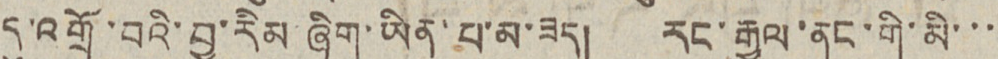དུ་འགྲོ་བའི་བྱ་རིམ ཞིག་ཡིན་པ་མ་ཟད། རང་རྒྱལ་ནང་གི་མི་་་
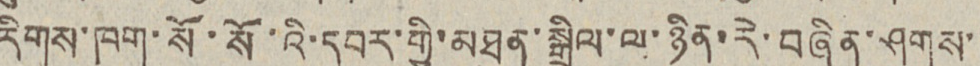རིགས་ཁག་སོ་སོ་འི་དབར་གྱི་མཐུན་སྒྲིལ་ལ་ཉིན་རེ་བཞིན་ཤུགས་་
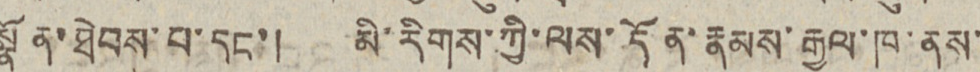སྣོན་ཐེབས་པ་དང་། མི་རིགས་ཀྱི་ལས་དོན་རྣམས་རྒྱལ་ཁ་ནས་
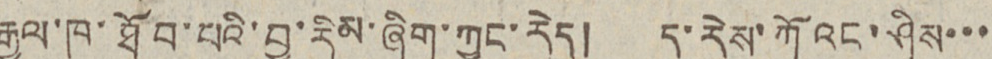རྒྱལ་ཁ་ཐོབ་པའི་བྱ་རིམ་ཞིག་ཀྱང་རེད། ད་རེས་ཀོའང་ཤིས་་་
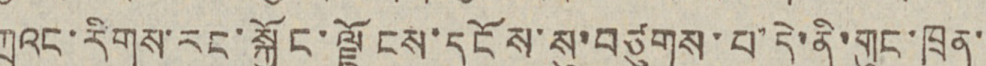ཀྲུའང་རིགས་རང་སྐྱོང་ལྗོངས་དངོས་སུ་བཙུགས་པ་དེ་ནི་གུང་ཁྲན་
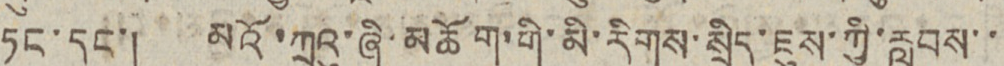ཏང་དང་། མའོ་ཀྲུའུ་ཞི་མཆོག་གི་མི་རིགས་སྲིད་ཇུས་ཀྱི་རླབས་་
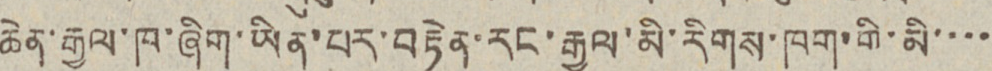ཆེན་རྒྱལ་ཁ་ཞིག་ཡིན་པར་བརྟེན་རང་རྒྱལ་མི་རིགས་ཁག་གི་མི་་་་
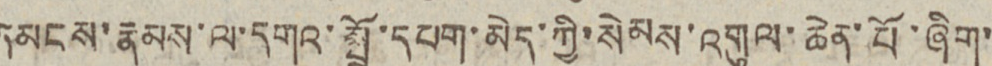དམངས་རྣམས་ལ་དགའ་སྤྲོ་དཔག་མེད་ཀྱི་སེམས་འགུལ་ཆེན་པོ་ཞིག་
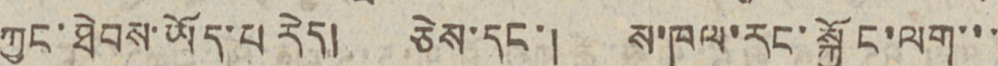ཀྱང་ཐེབས་ཡོད་པ རེད། ཅེས་དང་། ས་ཁུལ་རང་སྐྱོང་ལག་་་
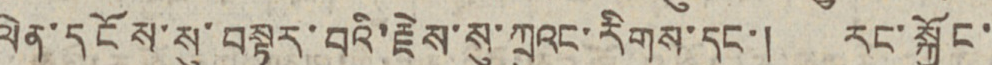ལེན་དངོས་སུ་བསྟར་བའི་རྗེས་སུ་ཀྲུའང་རེིགས་དང་། རང་སྐྱོང་
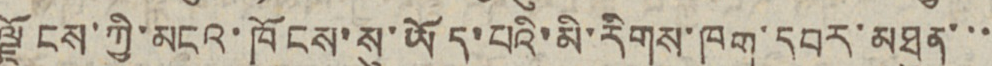ལྗོངས་ཀྱི་མངའ་ཁོངས་སུ་ཡོད་པའི་མི་རིགས་ཁག་དབར་མཐུན་་་
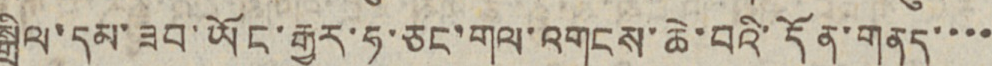སྒྲིལ་དམ་ཟབ་ཡོང་རྒྱུར་ཧ་ཅང་གལ་འགངས་ཆེ་བའི་དོན་གནད་་་་
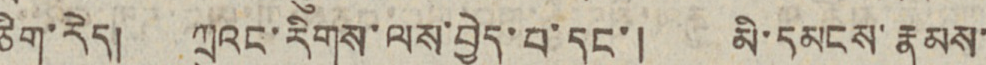ཅིག་རེད། ཀྲུའང་རིགས་ལས་བྱེད་པ་དང་། མི་དམངས་རྣམས་
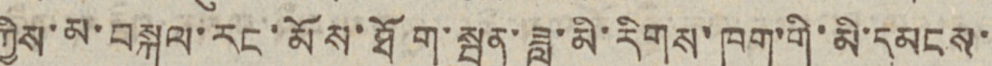ཀྱིས་མ་བསྐུལ་རང་མོས་ཐོག་སྤུན་ཟླ་མི་རིགས་ཁག་གི་མི་དམངས་
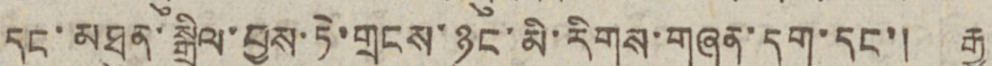དང་མཐུན་སྒྲིལ་བྱས་ཏེ་གྲངས་ཉུང་མི་རིགས་གཞན་དག་དང་། རྒྱ་
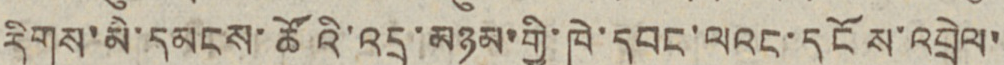རིགས་མི་དམངས་ཚོའི་འདྲ་མཉམ་གྱི་ཁེ་དབང་ལའང་དངོས་འབྲེལ་
